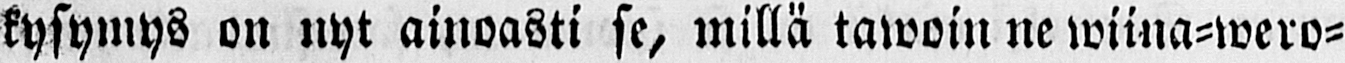kysymys on nyt ainoasti se, millä tawoin ne wiina-wero-
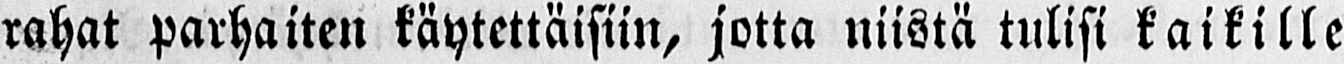rahat parhaiten käytettäisiin, jotta niistä tulisi kaikille
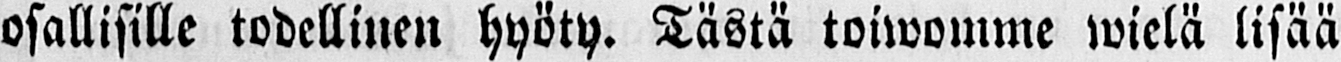osallisille todellinen hyöty. Tästä toiwomme wielä lisää
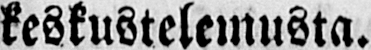keskustelemusta.
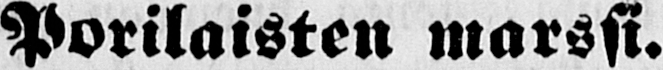Porilaisten marssi.
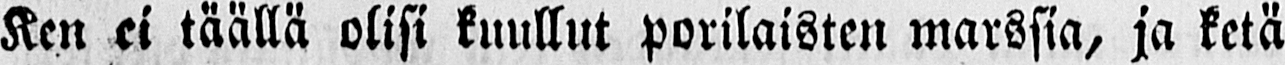Ken ei täällä olisi kuullut porilaisten marssia, ja ketä
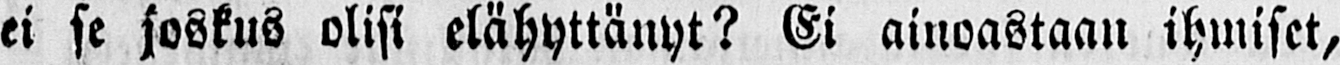ei se joskus olisi elähyttänyt? Ei ainoastaan ihmiset,
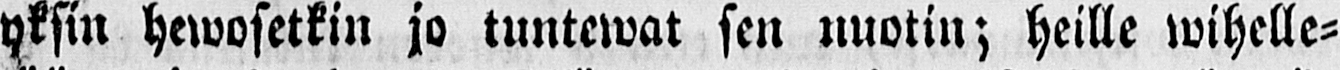yksin hewosetkin jo tuntewat sen nuotin; heille wihelle-
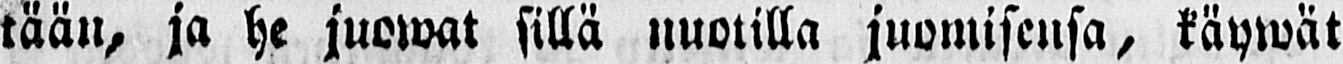tään, ja he juowat sillä nuotilla juomisensa, käywät
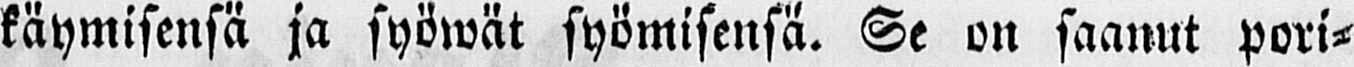käymisensä ja syöwät syömisensä. Se on saanut pori-
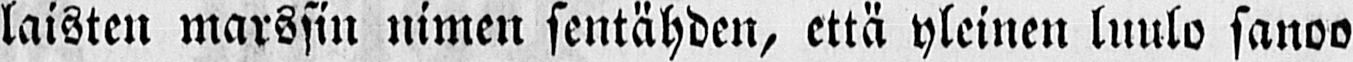laisten marssin nimen sentähden, että yleinen luulo sanoo
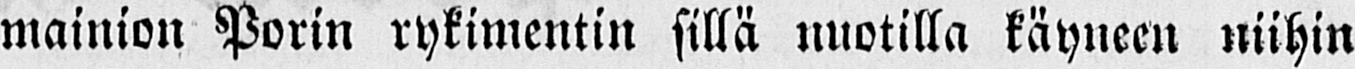mainion Porin rykimentin sillä nuotilla käyneen niihin
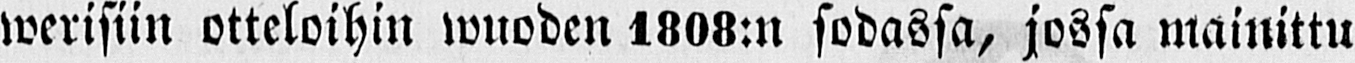werisiin otteloihin wuoden 1808:n sodassa, jossa mainittu
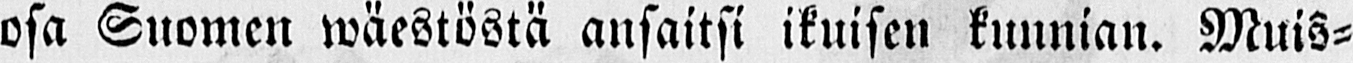osa Suomen wäestöstä ansaitsi ikuisen kunnian. Muis-
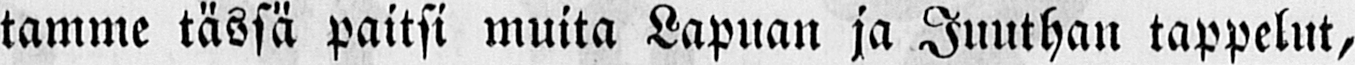tamme tässä paitsi muita Lapuan ja Juuthan tappelut,
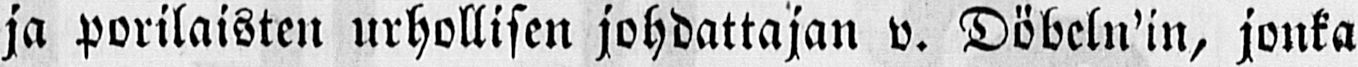ja porilaisten urhollisen johdattajan v. Döbeln'in, jonka
